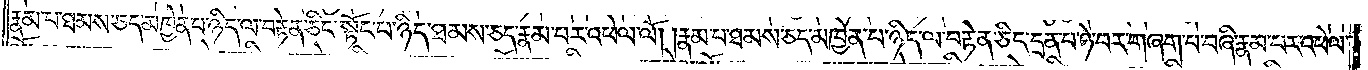རྣམ་པ་ཐམས་ཅད་མཁྱེན་པ་ཉིད་ལ་བརྟེན་ཅིང་སྟོང་པ་ཉིད་ཐམས་ཅད་རྣམ་པར་འཕེལ་ལོ། །རྣམ་པ་ཐམས་ཅད་མཁྱེན་པ་ཉིད་ལ་བརྟེན་ཅིང་དྲན་པ་ཉེ་བར་གཞག་པ་བཞི་རྣམ་པར་འཕེལ་
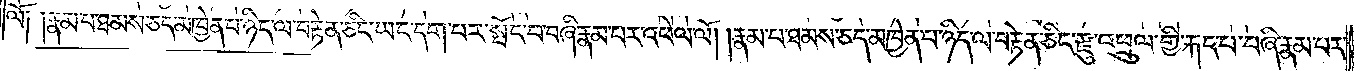ལོ༑ ༑རྣམ་པ་ཐམས་ཅད་མཁྱེན་པ་ཉིད་ལ་བརྟེན་ཅིང་ཡང་དག་པར་སྤོང་བ་བཞི་རྣམ་པར་འཕེལ་ལོ། །རྣམ་པ་ཐམས་ཅད་མཁྱེན་པ་ཉིད་ལ་བརྟེན་ཅིང་རྫུ་འཕྲུལ་གྱི་རྐང་པ་བཞི་རྣམ་པར་
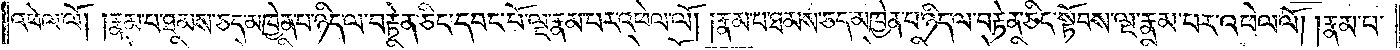འཕེལ་ལོ། །རྣམ་པ་ཐམས་ཅད་མཁྱེན་པ་ཉིད་ལ་བརྟེན་ཅིང་དབང་པོ་ལྔ་རྣམ་པར་འཕེལ་ལོ། །རྣམ་པ་ཐམས་ཅད་མཁྱེན་པ་ཉིད་ལ་བརྟེན་ཅིང་སྟོབས་ལྔ་རྣམ་པར་འཕེལ་ལོ། །རྣམ་པ་
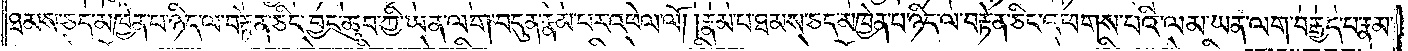ཐམས་ཅད་མཁྱེན་པ་ཉིད་ལ་བརྟེན་ཅིང་བྱང་ཆུབ་ཀྱི་ཡན་ལག་བདུན་རྣམ་པར་འཕེལ་ལོ། །རྣམ་པ་ཐམས་ཅད་མཁྱེན་པ་ཉིད་ལ་བརྟེན་ཅིང་འཕགས་པའི་ལམ་ཡན་ལག་བརྒྱད་པ་རྣམ་
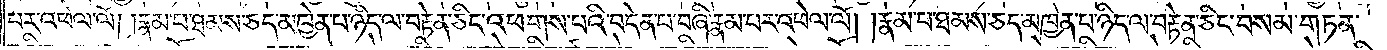པར་འཕེལ་ལོ། །རྣམ་པ་ཐམས་ཅད་མཁྱེན་པ་ཉིད་ལ་བརྟེན་ཅིང་འཕགས་པའི་བདེན་པ་བཞི་རྣམ་པར་འཕེལ་ལོ། །རྣམ་པ་ཐམས་ཅད་མཁྱེན་པ་ཉིད་ལ་བརྟེན་ཅིང་བསམ་གཏན་
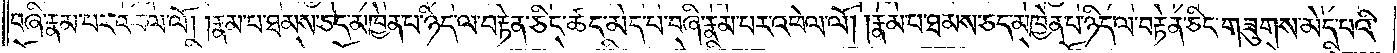བཞི་རྣམ་པར་འཕེལ་ལོ། །རྣམ་པ་ཐམས་ཅད་མཁྱེན་པ་ཉིད་ལ་བརྟེན་ཅིང་ཚད་མེད་པ་བཞི་རྣམ་པར་འཕེལ་ལོ། །རྣམ་པ་ཐམས་ཅད་མཁྱེན་པ་ཉིད་ལ་བརྟེན་ཅིང་གཟུགས་མེད་པའི་
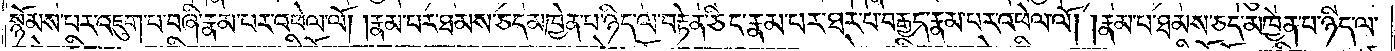སྙོམས་པར་འཇུག་པ་བཞི་རྣམ་པར་འཕེལ་ལོ། །རྣམ་པ་ཐམས་ཅད་མཁྱེན་པ་ཉིད་ལ་བརྟེན་ཅིང་རྣམ་པར་ཐར་པ་བརྒྱད་རྣམ་པར་འཕེལ་ལོ། །རྣམ་པ་ཐམས་ཅད་མཁྱེན་པ་ཉིད་ལ་
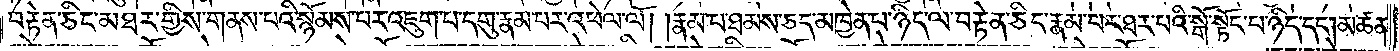བརྟེན་ཅིང་མཐར་གྱིས་གནས་པའི་སྙོམས་པར་འཇུག་པ་དགུ་རྣམ་པར་འཕེལ་ལོ། །རྣམ་པ་ཐམས་ཅད་མཁྱེན་པ་ཉིད་ལ་བརྟེན་ཅིང་རྣམ་པར་ཐར་པའི་སྒོ་སྟོང་པ་ཉིད་དང༌། མཚན་
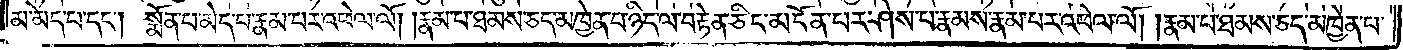མ་མེད་པ་དང༌། སྨོན་པ་མེད་པ་རྣམ་པར་འཕེལ་ལོ། །རྣམ་པ་ཐམས་ཅད་མཁྱེན་པ་ཉིད་ལ་བརྟེན་ཅིང་མངོན་པར་ཤེས་པ་རྣམས་རྣམ་པར་འཕེལ་ལོ། རྣམ་པ་ཐམས་ཅད་མཁྱེན་པ་
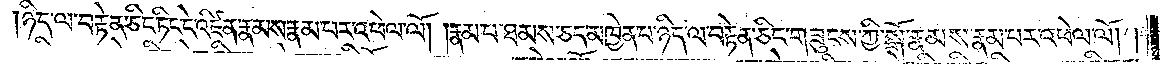ཉིད་ལ་བརྟེན་ཅིང་ཏིང་ངེ་འཛིན་རྣམས་རྣམ་པར་འཕེལ་ལོ། །རྣམ་པ་ཐམས་ཅད་མཁྱེན་པ་ཉིད་ལ་བརྟེན་ཅིང་གཟུངས་ཀྱི་སྒོ་རྣམས་རྣམ་པར་འཕེལ་ལོ། །
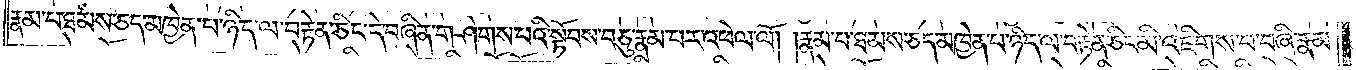རྣམ་པ་ཐམས་ཅད་མཁྱེན་པ་ཉིད་ལ་བརྟེན་ཅིང་དེ་བཞིན་གཤེགས་པའི་སྟོབས་བཅུ་རྣམ་པར་འཕེལ་ལོ། །རྣམ་པ་ཐམས་ཅད་མཁྱེན་པ་ཉིད་ལ་བརྟེན་ཅིང་མི་འཇིགས་པ་བཞི་རྣམ་
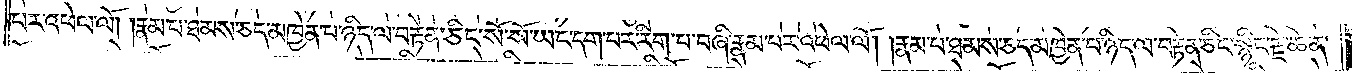པར་འཕེལ་ལོ། །རྣམ་པ་ཐམས་ཅད་མཁྱེན་པ་ཉིད་ལ་བརྟེན་ཅིང་སོ་སོ་ཡང་དག་པར་རིག་པ་བཞི་རྣམ་པར་འཕེལ་ལོ། །རྣམ་པ་ཐམས་ཅད་མཁྱེན་པ་ཉིད་ལ་བརྟེན་ཅིང་སྙིང་རྗེ་ཆེན་
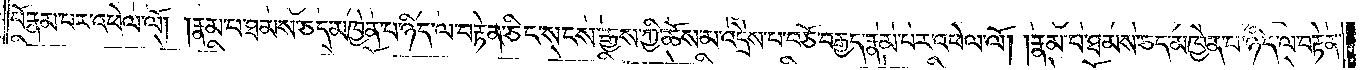པོ་རྣམ་པར་འཕེལ་ལོ། །རྣམ་པ་ཐམས་ཅད་མཁྱེན་པ་ཉིད་ལ་བརྟེན་ཅིང་སངས་རྒྱས་ཀྱི་ཆོས་མ་འདྲེས་པ་བཅོ་བརྒྱད་རྣམ་པར་འཕེལ་ལོ། །རྣམ་པ་ཐམས་ཅད་མཁྱེན་པ་ཉིད་ལ་བརྟེན་
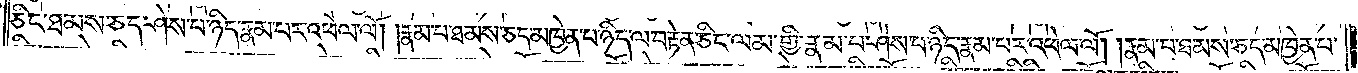ཅིང་ཐམས་ཅད་ཤེས་པ་ཉིད་རྣམ་པར་འཕེལ་ལོ། །རྣམ་པ་ཐམས་ཅད་མཁྱེན་པ་ཉིད་ལ་བརྟེན་ཅིང་ལམ་གྱི་རྣམ་པ་ཤེས་པ་ཉིད་རྣམ་པར་འཕེལ་ལོ། །རྣམ་པ་ཐམས་ཅད་མཁྱེན་པ་
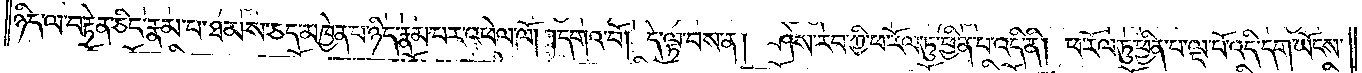ཉིད་ལ་བརྟེན་ཅིང་རྣམ་པ་ཐམས་ཅད་མཁྱེན་པ་ཉིད་རྣམ་པར་འཕེལ་ལོ། །དགའ་བོ། དེ་ལྟ་བས་ན། ཤེས་རབ་ཀྱི་ཕ་རོལ་ཏུ་ཕྱིན་པ་འདི་ནི། ཕ་རོལ་ཏུ་ཕྱིན་པ་ལྔ་པོ་འདི་དག་ཡོངས་
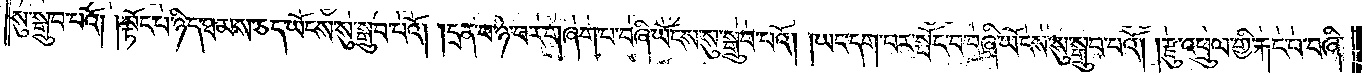སུ་སྒྲུབ་པའོ། །སྟོང་པ་ཉིད་ཐམས་ཅད་ཡོངས་སུ་སྒྲུབ་པའོ། །དྲན་པ་ཉེ་བར་གཞག་པ་བཞི་ཡོངས་སུ་སྒྲུབ་པའོ། །ཡང་དག་བར་སྤོང་བ་བཞི་ཡོངས་སུ་སྒྲུབ་པའོ། །རྫུ་འཕྲུལ་གྱི་རྐང་པ་བཞི་
